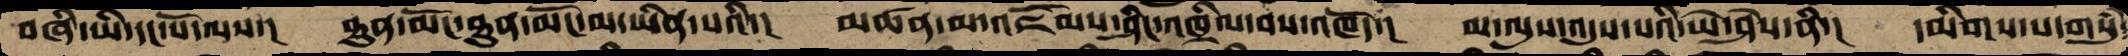བཞི་ཡི་དང་པོ་ལས་།  ཐུན་མོང་ཐུན་མོང་མ་ཡིན་པའི་།  མཚན་མ་འཇོམས་ཤིང་འཁྲིལ་བས་འཁོད་།  མ་ལུས་འདུས་པའི་ཡེ་ཤེས་ནི་།  དམིགས་པ་གསུཾ་
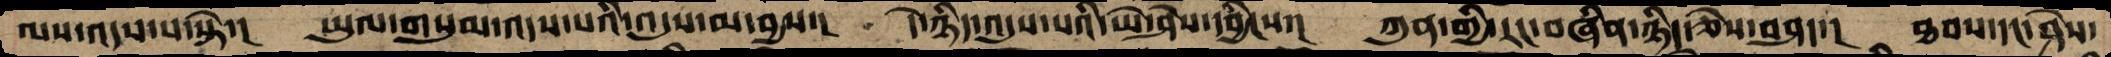ལས་འདས་པ་སྟེ་།  ཡུལ་གསུམ་འདས་པའི་འདུས་མ་བྱས་།  དེ་ཉིད་འདུས་པའི་ཡེ་ཤེས་དབྱིངས་།  ཀུན་གྱི་རང་བཞིན་ཉིད་ཅེས་བཤད་།  ཐབས་དང་ཤེས་
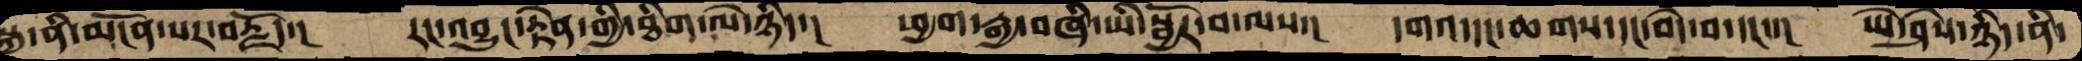སྐུ་ནི་མངོན་པར་བརྗོད་།  རང་འབྱུང་རྟེན་གྱི་ཐིག་ལེ་ཉིད་།  ཕྱག་རྒྱ་བཞི་ཡི་སྦྱོར་བ་ལས་།  དགའ་དང་ཆགས་དང་བདེ་བ་དང་་།  ཡེ་ཤེས་ཉིད་ནི་
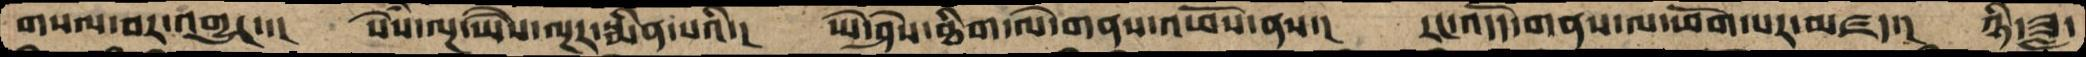གསལ་བར་འགྱུར་།  སེཾས་ལྔ་ཡཻས་ལྔར་སྨིན་པའི་།  ཡེ་ཤེས་ཐིག་ལེ་གནས་འཕོས་ནས་།  རང་འདོད་གནས་ལ་ཕོག་པར་མཛད་།  ཉི་ཟླ་
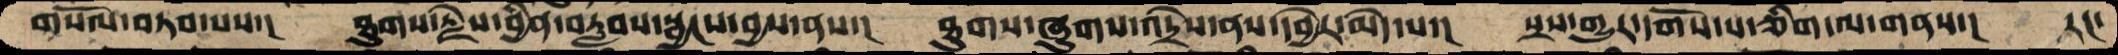གསོལ་བཏབ་པས་།   ཐུགས་རྗེས་བྱིན་བརླབས་སྦྱངས་བྱས་ནས་།  ཐུགས་ཞུགས་འདྲེས་ནས་དབྱེར་མེད་པ་།   སྲས་གྱུར་དགོས་པ་ཅིག་ལ་གནས་།  རང་
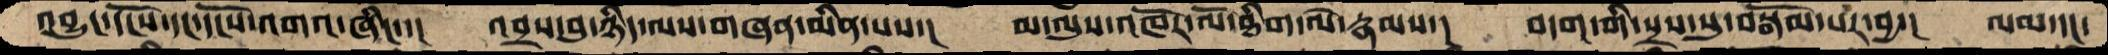འབྱུང་དངོས་དང་དངོས་འགའ་ཞིང་་།  འབྲས་བུ་ཉིད་ལས་གཞན་མིན་པས་།  མ་ལུས་འཁོར་ལོ་ཐིག་ལེ་རྣམས་།  བདག་གི་སྲས་སུ་བསྒོམ་པར་བྱ་།  ལམ་དང་
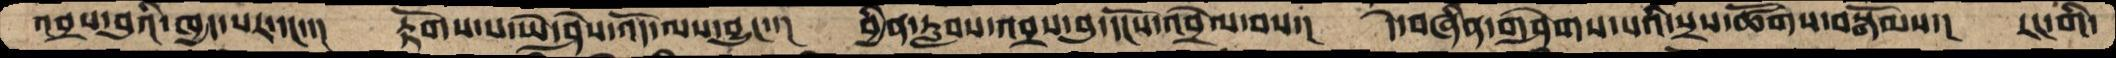འབྲས་བུའི་ཁྱད་པར་དང་་།   རྟོགས་པ་ཡེ་ཤེས་འོད་ལས་བྱུང་་།  བྱིན་རླབས་འབྲས་བུ་དངོས་འབྲེལ་བས་།  དེ་བཞིན་གཤེགས་པའི་སྲས་ཚོགས་བསྒོམས་།  རང་གི་
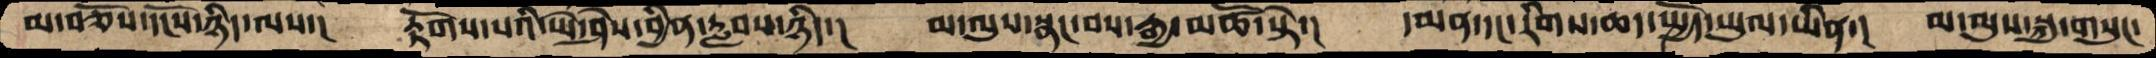མ་བཅོས་དངོས་ཉིད་ལས་།  རྟོགས་པའི་ཡེ་ཤེས་བྱིན་རླབས་ཉིད་།  མ་ལུས་སྣང་བས་རྒྱ་མཚོ་སྟེ་།  དམན་དང་རིགས་ཆད་སྤྱོད་ཡུལ་ཡིན་།  མ་ལུས་སྐུ་གསུང་
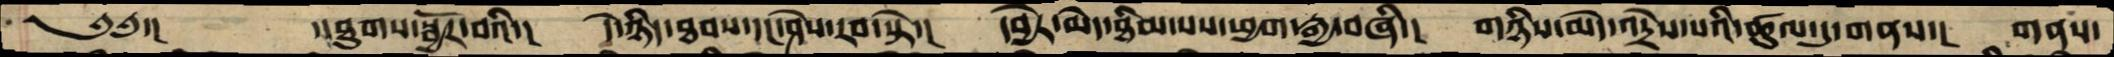༄༅་།      ་།ཐུགས་སྦྱོར་བའི་།  དེ་ཉིད་ཐབས་དང་ཤེས་རབ་སྟེ་།  དབྱེར་མེད་ཐིམ་པས་ཕྱག་རྒྱ་བཞི་།  གཉིས་མེད་འདྲེས་པའི་ཚུལ་དུ་གནས་།  གནས་
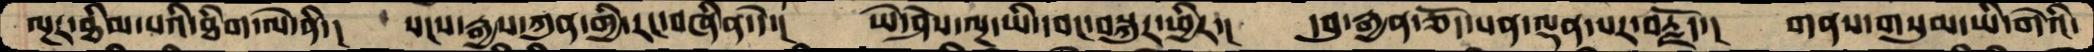ལྔར་ཐིམ་པའི་ཐིག་ལེ་ནི་།  སངས་རྒྱས་ཀུན་གྱི་རང་བཞིན་དེ་།  ཡེ་ཤེས་ལྔ་ཡི་དབང་བསྐུར་ཕྱིར་།  དབུ་རྒྱན་ཅོད་པན་ལྡན་པར་བརྗོད་།  གནས་གསུམ་ཡི་གེའི་
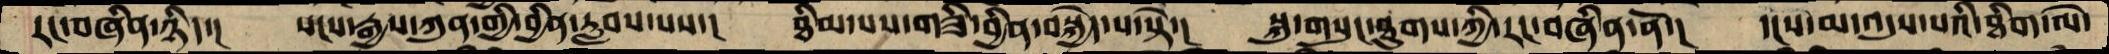རང་བཞིན་ཉིད་།  སངས་རྒྱས་ཀུན་གྱི་བྱིན་རླབས་པས་།  ཐིམ་པས་གཟི་བྱིན་བསྐྱེད་པ་སྟེ་།  སྐུ་གསུང་ཐུགས་ཀྱི་རང་བཞིན་ནོ་།  དངས་མ་འདུས་པའི་ཐིག་ལེ་
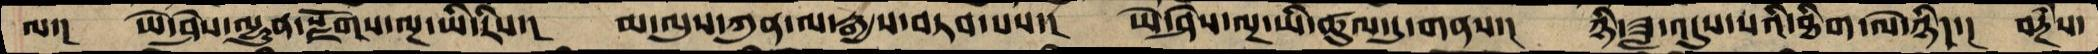ལ་།  ཡེ་ཤེས་ལྷུན་སྫོགས་ལྔ་ཡི་རིས་།  མ་ལུས་ཀུན་ལ་རྒྱས་བཏབ་པས་།  ཡེ་ཤེས་ལྔ་ཡི་ཚུལ་དུ་གནས་།  ཉི་ཟླ་འདུས་པའི་ཐིག་ལེ་ཉིད་།   བརྔཾས་
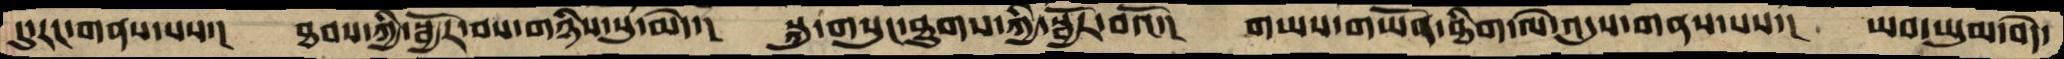དུ་རང་གནས་པས་།  ཐབས་ཀྱི་སྦྱོར་བས་གཉིས་སུ་མེད་།  སྐུ་གསུང་ཐུགས་ཀྱི་སྦྱོར་བའོ་།  གཡས་གཡོན་ཐིག་ལེ་འདུས་གནས་པས་།  ཡབ་ཡུམ་བདེ་
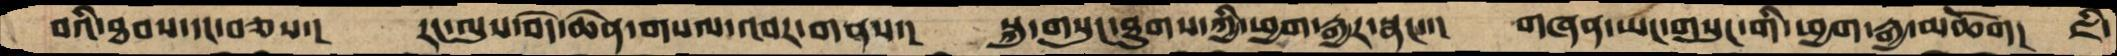བའི་ཐབས་དང་བཅས་།   རང་ལུས་བདེ་ཆེན་གསལ་འབར་གནས་།  སྐུ་གསུང་ཐུགས་ཀྱི་ཕྱག་རྒྱར་སྣང་་།  གཞན་ཡང་གསུང་གི་ཕྱག་རྒྱ་མཆོག།  ཇི་
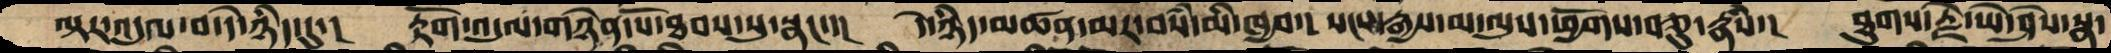ལྟར་འདུལ་བ་དེ་ཉིད་དུ་།   རྟོག་འདུལ་གཉེན་པོ་ཐབས་སུ་སྣང་་།  དེ་ཉིད་མཚན་མར་བསཾ་མི་ཁྱབ་།  སངས་རྒྱས་མ་ལུས་ཕྱོགས་བཅུ་རྣཾས་།  ཐུགས་རྗེ་ཡེ་ཤེས་སྣ་
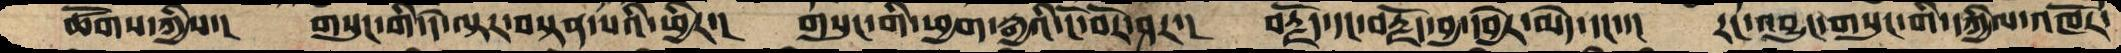ཚོགས་ཀྱིས་།  གསུང་གི་དེ་ལྟར་བསྟན་པའི་ཕྱིར་།  གསུང་གི་ཕྱག་རྒྱའི་ངོ་བོར་ཤར་།  བརྗོད་དང་བརྗོད་བྱ་དབྱེར་མེད་དང་་།  རང་འབྱུང་གསུང་གི་དཀྱིལ་འཁོར་
